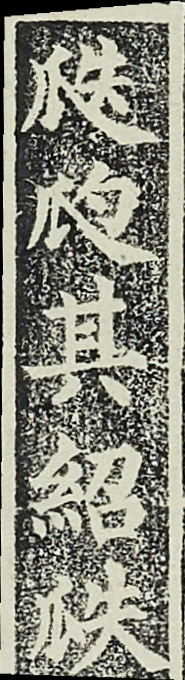瓞瓝其紹瓞
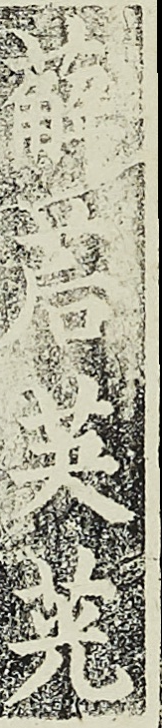薢茩芙茪
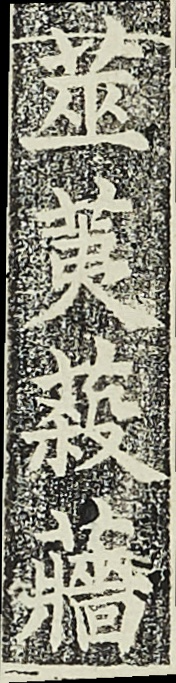莁荑蔱蘠
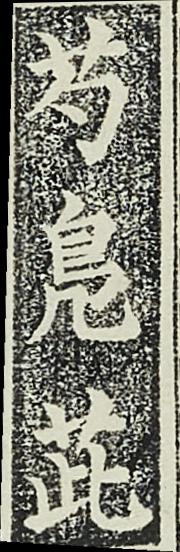芍鳬茈
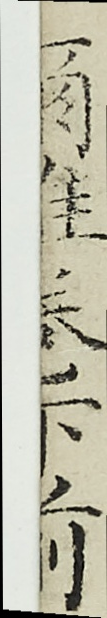爾雅卷下前
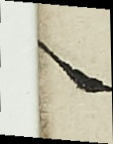八
